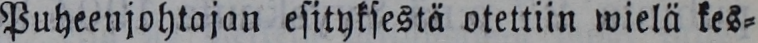Puheenjohtajan esityksestä otettiin wielä kes-
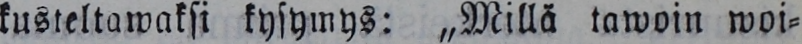kusteltawaksi kysymys: „Millä tawoin woi-
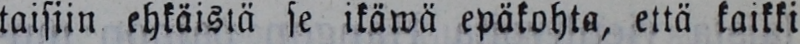taisiin ehkäistä se ikäwä epäkohta, että kaikki
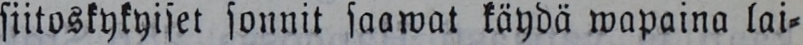siitoskykyiset sonnit saawat käydä wapaina lai-
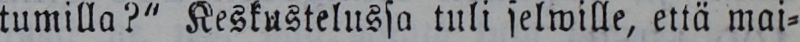tumilla?" Keskustelussa tuli selwille, että mai-
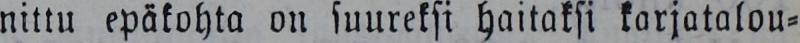nittu epäkohta on suureksi haitaksi karjatalou-
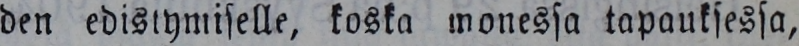den edistymiselle, koska monessa tapauksessa,
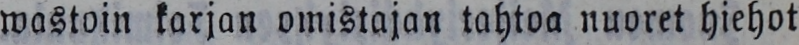wastoin karjan omistajan tahtoa nuoret hiehot
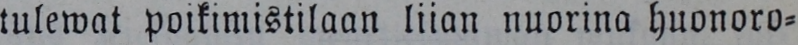tulewat poikimistilaan liian nuorina huonoro-
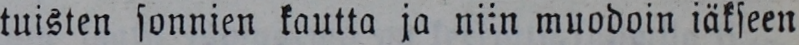tuisten sonnien kautta ja niin muodoin iäkseen
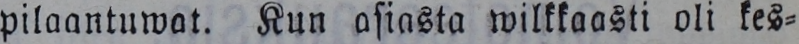pilaantuwat. Kun asiasta wilkkaasti oli kes-
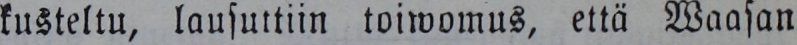kusteltu, lausuttiin toiwomus, että Waasan
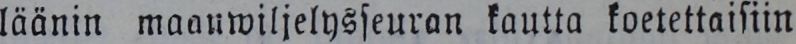läänin maanwiljelysseuran kautta koetettaisiin
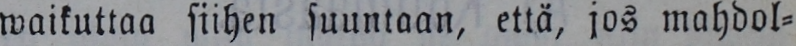waikuttaa siihen suuntaan, että, jos mahdol-
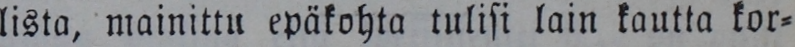lista, mainittu epäkohta tulisi lain kautta kor-
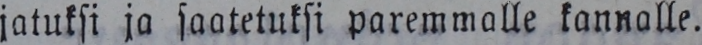jatuksi ja saatetuksi paremmalle kannalle.
